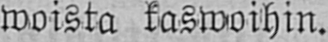woista kaswoihin.
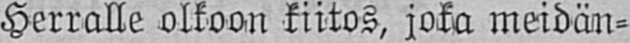Herralle olkoon kiitos, joka meidän-
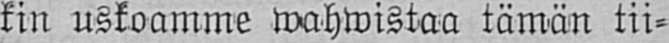kin uskoamme wahwistaa tämän tii-
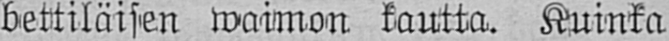bettiläisen waimon kautta. Kuinka
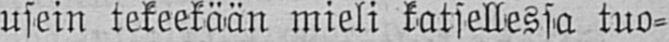usein tekeekään mieli katsellessa tuo-
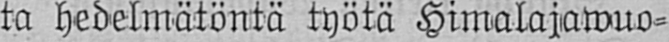ta hedelmätöntä työtä Himalajawuo-
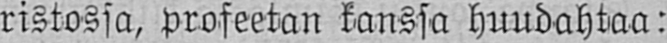ristossa, profeetan kanssa huudahtaa:
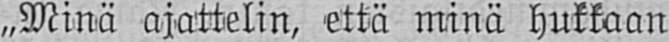„Minä ajattelin, että minä hukkaan
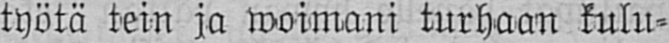työtä tein ja woimani turhaan kulu-
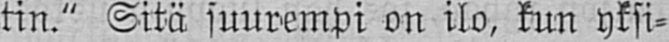tin." Sitä suurempi on ilo, kun yksi-
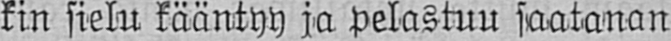kin sielu kääntyy ja pelastuu saatanan
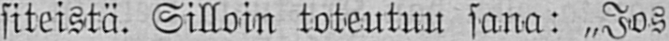siteistä. Silloin toteutuu sana: „Jos
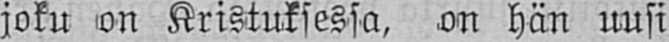joku on Kristuksessa, on hän uusi
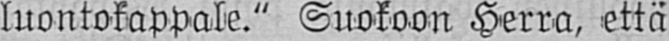luontokappale." Suokoon Herra, että
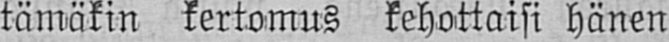tämäkin kertomus kehottaisi hänen
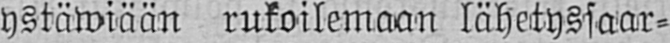ystäwiään rukoilemaan lähetyssaar-
